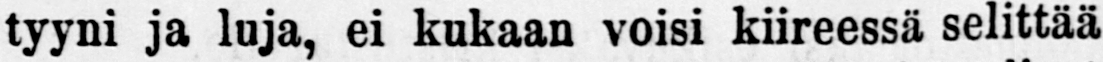tyyni ja luja, ei kukaan voisi kiireessä selittää
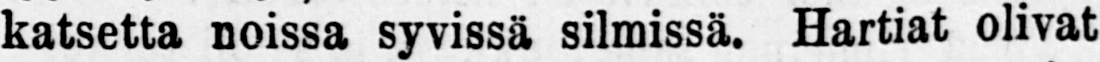katsetta noissa syvissä silmissä. Hartiat olivat
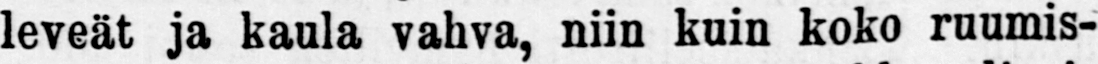leveät ja kaula vahva, niin kuin koko ruumis-
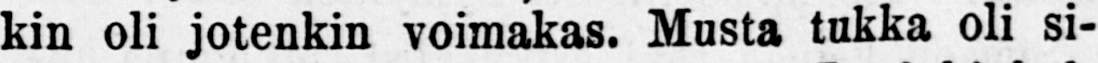kin oli jotenkin voimakas. Musta tukka oli si-
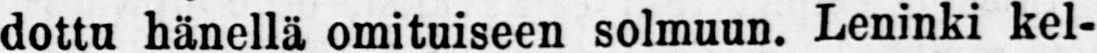dottu hänellä omituiseen solmuun. Leninki kel-
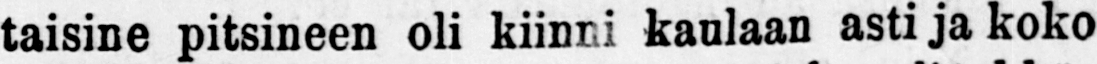taisine pitsineen oli kiinni kaulaan asti ja koko
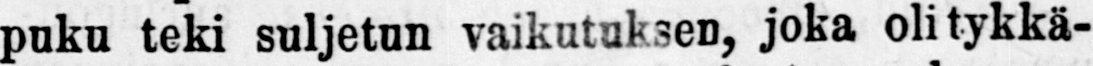puku teki suljetun vaikutuksen, joka oli tykkä-
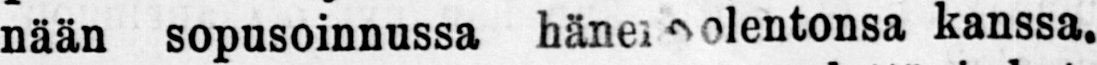nään sopusoinnussa häne olentonsa kanssa.
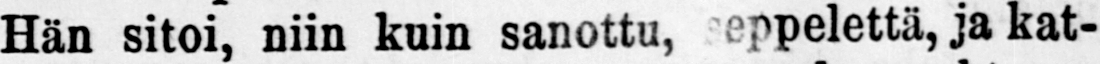Hän sitoi, niin kuin sanottu, seppelettä, ja kat-
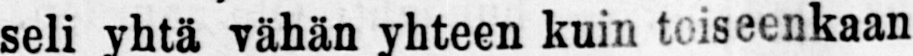seli yhtä vähän kuin toiseenkaan yhteen-
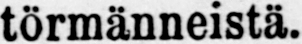törmänneistä.
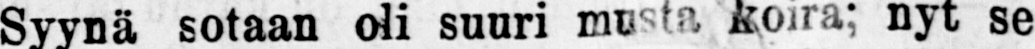Syynä sotaan oli suuri musta koira; nyt se
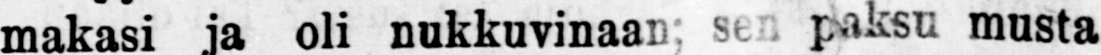makasi ja oli nukkuvinaan; sen paksu musta
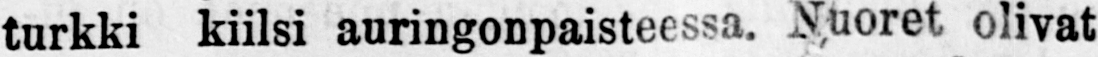turkki kiilsi auringonpaisteessa. Nuoret olivat
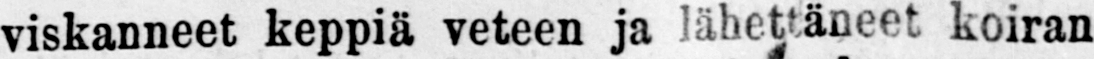viskanneet keppiä veteen ja lähet täneet koiran
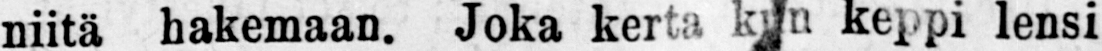niitä hakemaan. Joka kerta kun keppi lensi
